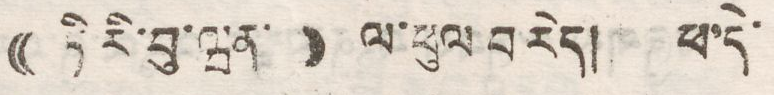(( ཏི རི་བུ་ཝན་ )) ལ་ཕུལ བ རེད། ཕ་དེ་
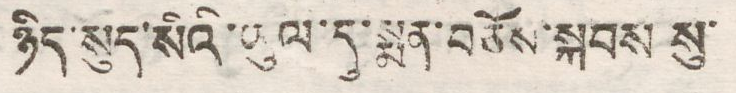ཉིད་སུད་སིའི་ཡུལ་དུ་སྨན་བཅོས་སྐབས སུ་
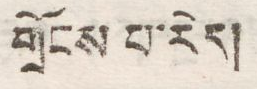གྲོངས པ་རེད།
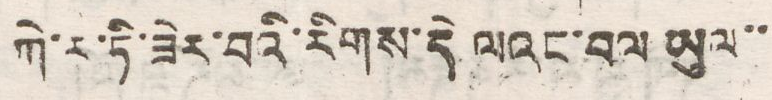ཀེ་ར་ཏི་ཟེར་བའི་རིགས་དེ ལའང་བལ ཡུལ་་
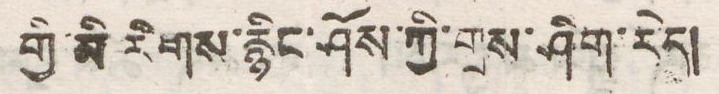གྱི་མི རིགས་རྙིང་ཤོས་ཀྱི་གྲས་ཤིག་རེད།
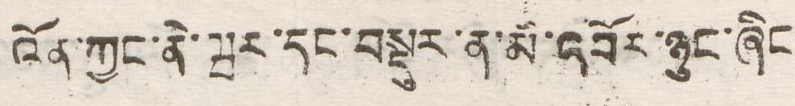འོན་ཀྱང་ནེ་ཝར་དང་བསྡུར་ན་མོ་འབོར་ཉུང་ཞིང
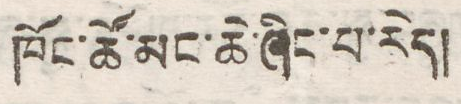ཁོང་ཚོ་མང་ཆེ་ཞིང་པ་རེད།
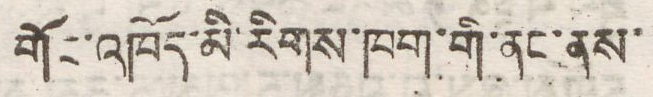གོང་འཁོད་མི་རིགས་ཁག་གི་ནང་ནས་
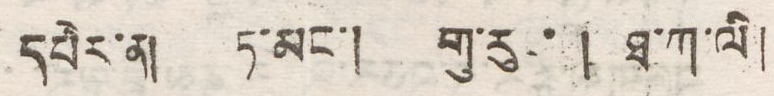དཔེར་ན། ཏ་མང་། གུ་རུང་། ཐ་ཀ་ལི།
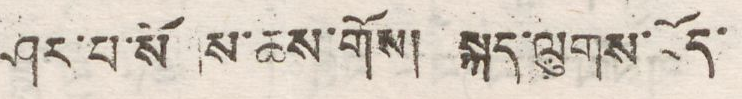ཤར་པ་སོགས་ཆས་གོས། སྐད་ལུགས་བོད་
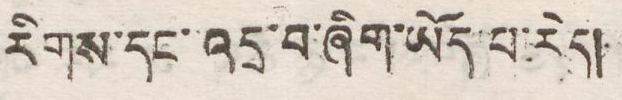རིགས་དང་འདྲ་བ་ཞིག་ཡོད་པ་རེད།
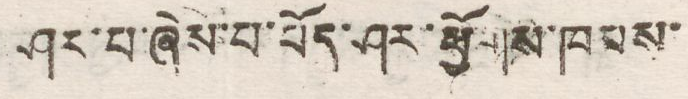ཤར་པ་ཞེས་པ་བོད་ཤར་ཕྱོགས་ཁམས་
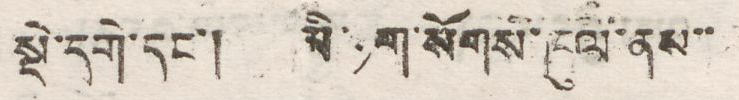སྡེ་དགེ་དང་། མི་ཉག་སོགས་ཁུལ་ནས་་
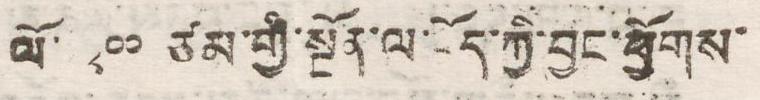ལོ་ ༢༠༠ ཙམ་གྱི་སྔོན་ལ་བོད་ཀྱི་བྱང་ཕྱོགས་
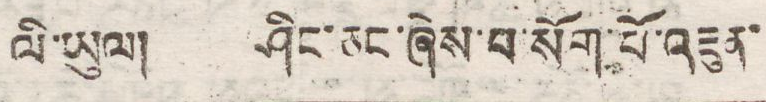ལི་ཡུལ། ཤིང་ཅང་ཞེས་པ་སོག་པོ་འཇུན་
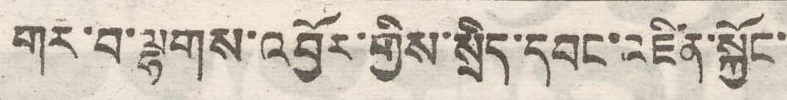གར་བ་ལྷགས་འབྱོར་གྱིས་སྲིད་དབང་འཛིན་སྐྱོང་
